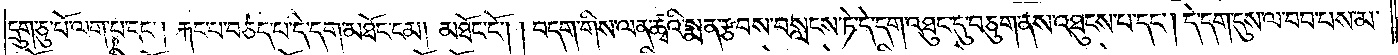དྲུག་ཅུ་པོ་ལག་པ་དང༌། རྐང་པ་བཅད་པ་དེ་དག་མཐོང་ངམ། མཐོང་ངོ༌། །བདག་གིས་ལན་ཚྭའི་སྨན་རྩབས་བསླངས་ཏེ་དེ་དག་འཐུང་དུ་བཅུག་ནས་འཐུངས་པ་དང༌། དེ་དག་དུས་ལ་བབ་པས་མ་
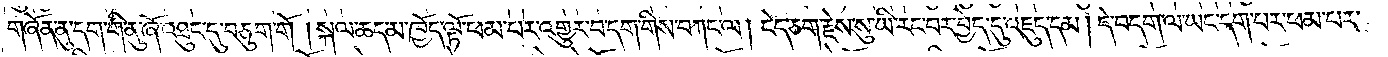གཞོན་ནུ་དག་གི་ནུ་ཞོ་འཐུང་དུ་བཅུག་གོ །སྐལ་ཆད་མ་ཁྱོད་ལྟོ་ཕམ་པར་འགྱུར་བ་དག་གིས་བཀང་ལ། ངེད་ཅག་རྗེས་སུ་ཡི་རང་བར་བྱེད་དུ་འཇུད་དམ། དེ་བདག་ལ་ཡང་དག་པར་ཕམ་པར་
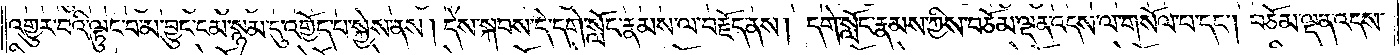འགྱུར་བའི་ལྟུང་བ་མ་བྱུང་ངམ་སྙམ་དུ་འགྱོད་པ་སྐྱེས་ནས། དེས་སྐབས་དེ་དགེ་སློང་རྣམས་ལ་བརྗོད་ནས། དགེ་སློང་རྣམས་ཀྱིས་བཅོམ་ལྡན་འདས་ལ་གསོལ་བ་དང༌། བཅོམ་ལྡན་འདས་
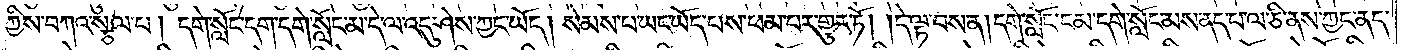ཀྱིས་བཀའ་སྩལ་པ། དགེ་སློང་དག་དགེ་སློང་མ་དེ་ལ་འདུ་ཤེས་ཀྱང་ཡོད། སེམས་པ་ཡང་ཡོད་པས་ཕམ་པར་གྱུར་ཏོ། །དེ་ལྟ་བས་ན། དགེ་སློང་ངམ་དགེ་སློང་མས་ནད་པ་ལ་ཅི་ནས་ཀྱང་ནད་
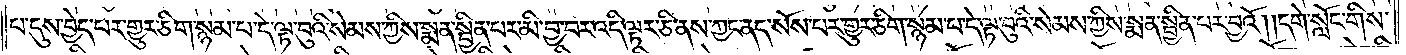པ་དུས་བྱེད་པར་གྱུར་ཅིག་སྙམ་པ་དེ་ལྟ་བུའི་སེམས་ཀྱིས་སྨན་སྦྱིན་པར་མི་བྱ་བར་འདི་ལྟར་ཅི་ནས་ཀྱང་ནད་སོས་པར་གྱུར་ཅིག་སྙམ་པ་དེ་ལྟ་བུའི་སེམས་ཀྱིས་སྨན་སྦྱིན་པར་བྱའོ། །དགེ་སློང་གིས་
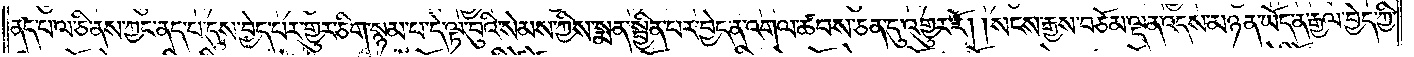ནད་པ་ལ་ཅི་ནས་ཀྱང་ནད་པ་དུས་བྱེད་པར་གྱུར་ཅིག་སྙམ་པ་དེ་ལྟ་བུའི་སེམས་ཀྱིས་སྨན་སྦྱིན་པར་བྱེད་ན་འགལ་ཚབས་ཅན་དུ་འགྱུར་རོ། །སངས་རྒྱས་བཅོམ་ལྡན་འདས་མཉན་ཡོད་ན་རྒྱལ་བྱེད་ཀྱི་
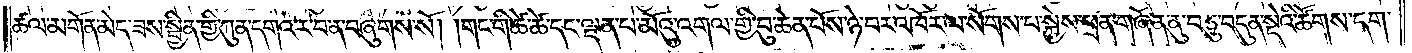ཚལ་མགོན་མེད་ཟས་སྦྱིན་གྱི་ཀུན་དགའ་ར་བ་ན་བཞུགས་སོ། །གང་གི་ཚེ་ཚེ་དང་ལྡན་པ་མོའུ་འགལ་གྱི་བུ་ཆེན་པོས་ཉེ་བར་འཁོར་ལ་སོགས་པ་སྐྱེས་ཕྲན་གཞོན་ནུ་བཅུ་བདུན་སྡེའི་ཚོགས་དག་
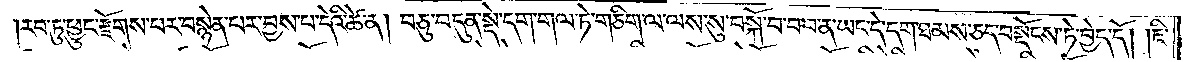།རབ་ཏུ་ཕྱུང་རྫོགས་པར་བསྙེན་པར་བྱས་པ་དེའི་ཚེ་ན། བཅུ་བདུན་སྡེ་དག་གལ་ཏེ་གཅིག་ལ་ལས་སུ་བསྐོ་བ་བབ་ན་ཡང་དེ་དག་ཐམས་ཅད་བསྡོངས་ཏེ་བྱེད་དོ། །ཇི་
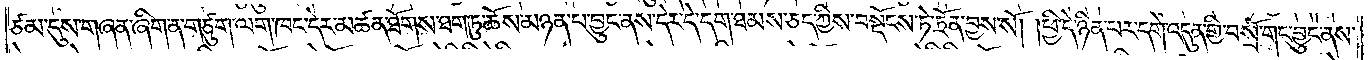ཙམ་དུས་གཞན་ཞིག་ན་གཙུག་ལག་ཁང་དེར་མཚན་ཐོགས་ཐག་ཏུ་ཆོས་མཉན་པ་བྱུང་ནས་དེར་དེ་དག་ཐམས་ཅད་ཀྱིས་བསྡོངས་ཏེ་ཏྲོན་བྱས་སོ། །ཕྱི་དེ་ཉིན་པར་དགེ་འདུན་གྱི་བསྲོ་གང་བྱུང་ནས་
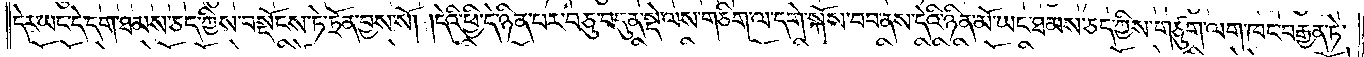དེར་ཡང་དེ་དག་ཐམས་ཅད་ཀྱིས་བསྡོངས་ཏེ་ཏྲོན་བྱས་སོ། །དེའི་ཕྱི་དེ་ཉིན་པར་བཅུ་བདུན་སྡེ་ལས་གཅིག་ལ་དགེ་སྐོས་བབ་ནས་དེའི་ཉིན་མོ་ཡང་ཐམས་ཅད་ཀྱིས་གཙུག་ལག་ཁང་བརྒྱན་ཏེ་
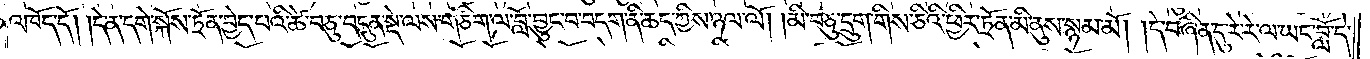འཁོད་དོ། །དེ་ན་དགེ་སྐོས་ཏྲོན་བྱེད་པའི་ཚེ་བཅུ་བདུན་སྡེ་ལས་གཅིག་ལ་བློ་བྱུང་བ་བདག་ནི་ཆད་ཀྱིས་ཉལ་ལོ། །མི་བཅུ་དྲུག་གིས་ཅིའི་ཕྱིར་ཏྲོན་མི་ནུས་སྙམ་མོ། །དེ་བཞིན་དུ་རེ་རེ་ལ་ཡང་བློ་དེ་
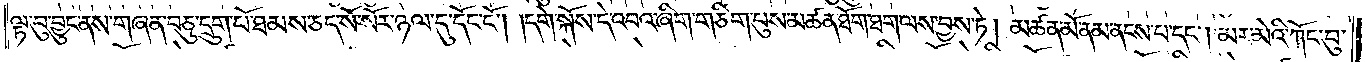ལྟ་བུ་བྱུང་ནས་གཞན་བཅུ་དྲུག་པོ་ཐམས་ཅད་སོ་སོར་ཉལ་དུ་དོང་ངོ༌། །དགེ་སྐོས་དེ་འབའ་ཞིག་གཅིག་པུས་མཚན་ཐོག་ཐག་ལས་བྱས་ཏེ། མཚན་མོ་ནམ་ནངས་པ་དང༌། མར་མེའི་ཀོང་བུ་
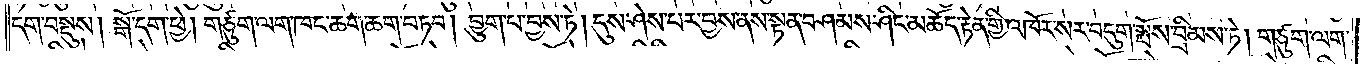དག་བསྡུས། སྒོ་དག་ཕྱེ། གཙུག་ལག་ཁང་ཆག་ཆག་བཏབ། བྱུག་པ་བྱས་ཏེ། དུས་ཤེས་པར་བྱས་ནས་སྟན་བཤམས་ཤིང་མཆོད་རྟེན་གྱི་འཁོར་སར་བདུག་སྤོས་བྲིམས་ཏེ། གཙུག་ལག་
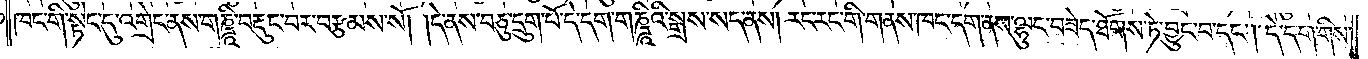ཁང་གི་སྟེང་དུ་འགྲེང་ནས་གཎྜཱི་བརྡུང་བར་བརྩམས་སོ། །དེ་ནས་བཅུ་དྲུག་པོ་དེ་དག་གཎྜཱིའི་སྒྲས་སད་ནས། རང་རང་གི་གནས་ཁང་དག་ནས་ལྷུང་བཟེད་ཐོགས་ཏེ་བྱུང་བ་དང༌། དེ་དག་གིས་
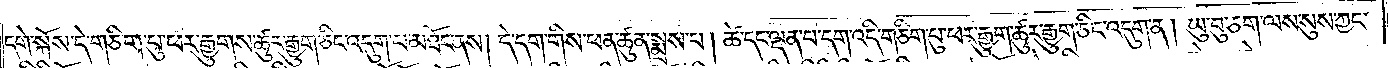དགེ་སྐོས་དེ་གཅིག་པུ་ཕར་རྒྱུགས་ཚུར་རྒྱུག་ཅིང་འདུག་པ་མཐོང་ནས། དེ་དག་གིས་ཕན་ཚུན་སྨྲས་པ། ཚེ་དང་ལྡན་པ་དག་འདི་གཅིག་པུ་ཕར་རྒྱུག་ཚུར་རྒྱུག་ཅིང་འདུག་ན། ཡུ་བུ་ཅག་ལས་སུས་ཀྱང་
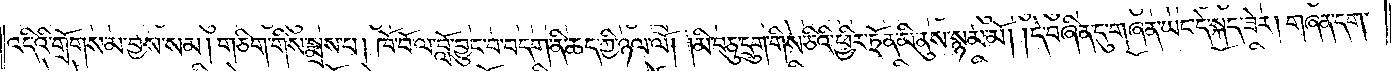འདིའི་གྲོགས་མ་བྱས་སམ། གཅིག་གིས་སྨྲས་པ། ཁོ་བོ་ལ་བློ་བྱུང་བ་བདག་ནི་ཆད་ཀྱི་ཉལ་ལོ། །མི་བཅུ་དྲུག་གིས་ཅིའི་ཕྱིར་ཏྲོན་མི་ནུས་སྙམ་མོ། །དེ་བཞིན་དུ་གཞན་ཡང་དེ་སྐད་ཟེར། གཞན་དག་
